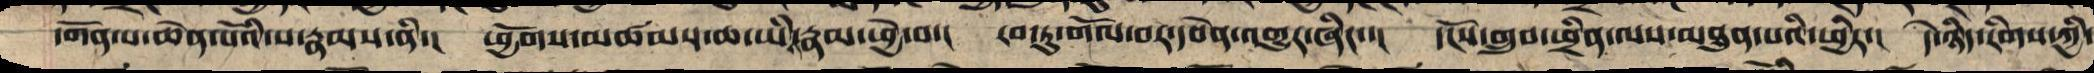དགོན་པ་ཆེན་པོའི་ས་རྣམས་ནི་། ཕྱོགས་མཚམས་ཆ་ཡིས་རྣམ་ཕྱེ་བ་། རབ་ཏུ་འགོལ་བར་དབེན་འགྱུར་ཞིང་་། དངོས་གྲུབ་ཕྲིན་ལས་མཐུན་པའི་ཕྱིར་། དེ་ཉིད་རིགས་ཀྱི་
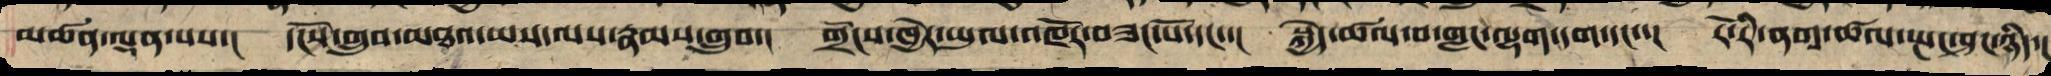མཚན་ལྡན་པས་། དངོས་གྲུབ་མཐའ་ཡས་ལས་རྣམས་འགྲུབ་། གྲོང་ཁྱེར་ཡུལ་འཁོར་བཟང་པོ་དང་་། སྐྱེད་ཚལ་བ་གླང་ལྷག་དག་དང་་། རོ་རི་ནགས་ཚལ་སྤང་ཤོང་ཉིད་།
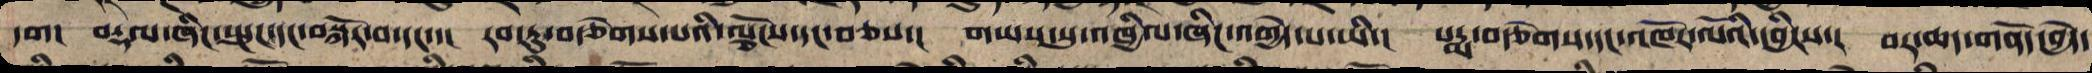དག། བརྡལ་ཞིང་སྤུཌ་དང་བསྐོར་བ་དང་་། རབ་ཏུ་བརྩེགས་པའི་ལྕོངས་དང་བཅས་། གཡས་སུ་འཁྱིལ་ཞིང་འགྱེད་པ་ཡི་། པདྨ་བརྩེགས་དང་འཁོར་ལོའི་དབྱིངས་། བར་ཆད་གནོད་བྱེད་
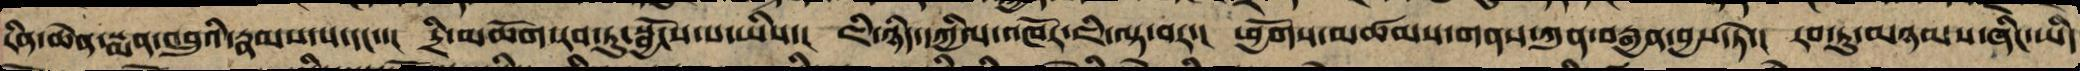རིན་ཆེན་སྨན་འབྲུའི་རྣམས་པ་དང་་། དྲི་མཆོག་རབ་ཏུ་སྦྱོངས་པ་ཡིས་། དེ་ཉིད་དཀྱིལ་འཁོར་ཇི་ལྟ་བར་། ཕྱོགས་མཚམས་གནས་ཀུན་བརྒྱན་བྱས་ཏེ་། རབ་ཏུ་མཉམས་ཞིང་ཡིད
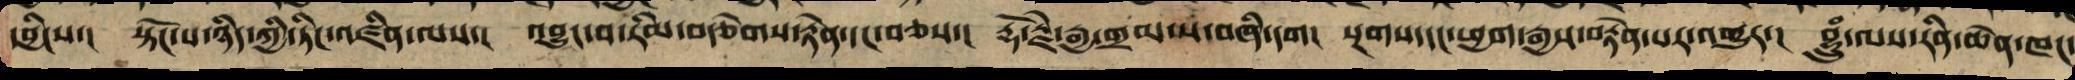དབྱིངས་། སྟོང་པ་ཉིད་ཀྱི་ཏིང་འཛིན་ལས་། འབྱུང་བ་རིམ་བརྩེགས་རྟེན་དང་བཅས་། རྡོ་རྗེ་རྒྱ་གྲམ་ས་གཞི་དག། སྔགས་དང་ཕྱག་རྒྱས་བརྟེན་པར་འགྱུར་། བྷྲཱུཾ་ལས་རིན་ཆེན་ཁང་
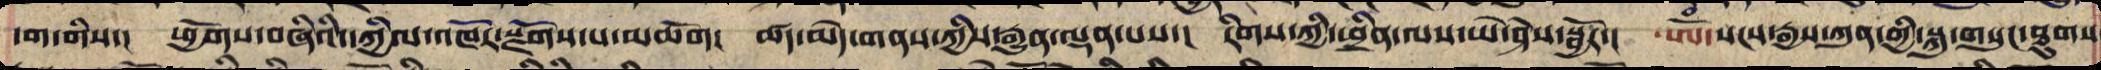དག་གིས་། ཕྱོགས་བཞིའི་དཀྱིལ་འཁོར་སྫོགས་པ་མཆོག། ཚད་མེད་གནས་ཀྱིས་རྒྱུན་ལྡན་པ་། རིགས་ཀྱི་ཕྲིན་ལས་ཡེ་ཤེས་སྦྱོར་། ཨོཾ་སངས་རྒྱས་ཀུན་གྱི་སྐུ་གསུང་ཐུགས
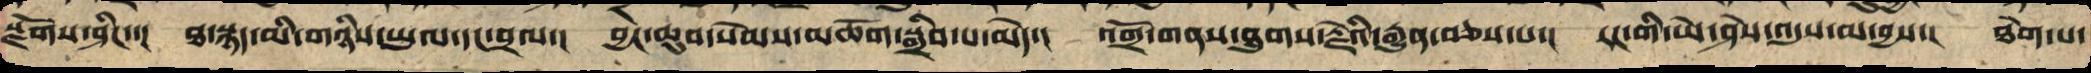སྫོགས་ཤིང་་། ཐ་སྙད་མི་གཉིས་ཡུལ་དང་བྲལ་། བྱང་ཆུབ་སེམས་མཆོག་སྒྲིབ་པ་མེད་། འགྲོ་གནས་ཐུགས་རྗེའི་རྒྱུན་བཅས་པ་། རང་གི་ཡེ་ཤེས་འདུས་མ་བྱས་། ཐེག་པ་
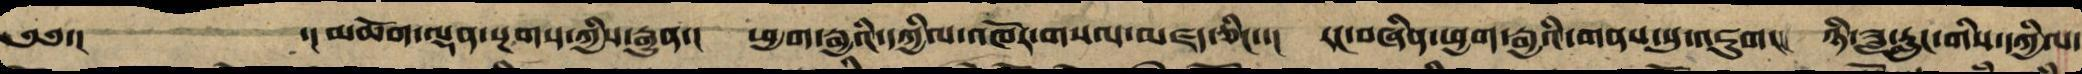༄༅་། ་།མཆོག་ལྡན་སྔགས་ཀྱི་རྒྱུན་། ཕྱག་རྒྱའི་དཀྱིལ་འཁོར་གསལ་མཛད་ཅིང་་། རང་བཞིན་ཕྱག་རྒྱའི་གནས་སུ་འཇུག། ཉི་ཟླ་རླུང་གིས་དཀྱིལ་
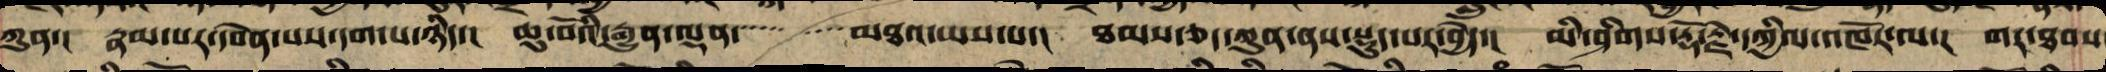ཀུན་། རྣམ་པར་དབེན་པས་དག་པ་ཉིད་། ཆུ་བོའི་རྒྱུན་ལྡན་མཐའ་ཡས་པ་། ཐམས་ཅད་ཀུན་ནས་སྡུད་པར་བྱེད་། མི་ཤིགས་རྡོ་རྗེའི་དཀྱིལ་འཁོར་ལ་། གར་ཐབས
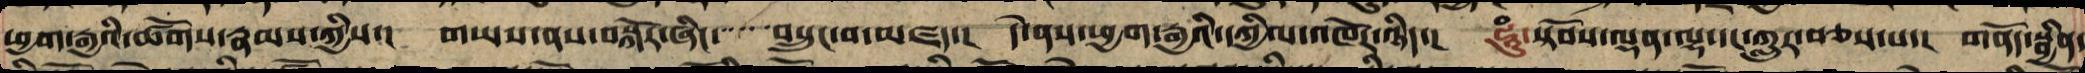ཕྱག་རྒྱའི་ཚོགས་རྣམས་ཀྱིས་། གཡས་ནས་བསྐོར་ཞིང་བསྲུང་བར་མཛད་། དེ་ནས་ཕྱག་རྒྱའི་དཀྱིལ་འཁོར་ཉིད་། ཧཱུྃ་སྟོབས་ཆེན་ལྷ་དང་ཀླུར་བཅས་པ་། གནོད་སྦྱིན་
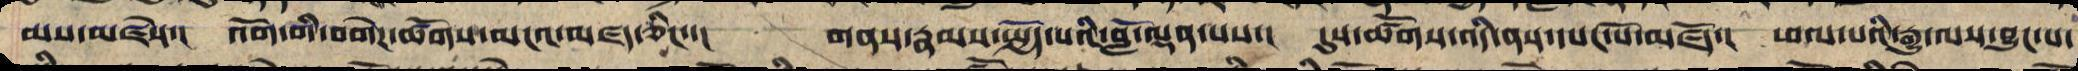མས་མཛེས་། འོག་གི་བགེཌ་ཚོགས་མངའ་མཛད་ཅིང་་། གནས་རྣམས་བསྐྱོད་པའི་བློ་ལྡན་པས་། དུས་ཚོད་འདི་ན་དཔང་པོ་མཛོད་། ཕལ་པའི་རྒྱུ་ལས་བྱུང་པ་
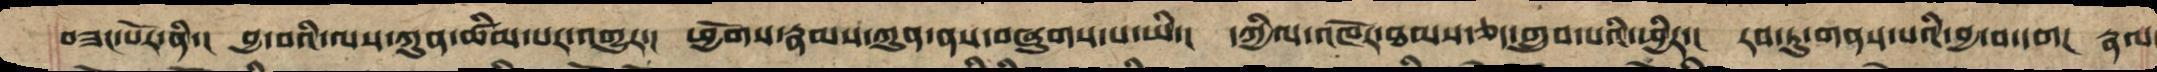བཟང་པོར་ནི་། བྱ་བའི་ལས་ཀུན་ཚིམས་པར་འགྱུར་། ཕྱོགས་རྣམས་ཀུན་ན་བཞུགས་པ་ཡི་། དཀྱིལ་འཁོར་ཐམས་ཅད་འགྲུབ་པའི་ཕྱིར་། རབ་ཏུ་གནས་པའི་བྱ་བ་དག། རྣལ
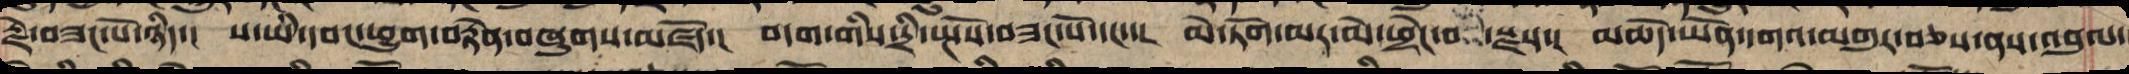རྗེ་བཟང་པོ་ཉིད་། ས་ཡི་དབང་ཕྱུག་བརྟེན་བཞུགས་མཛོད་། བདག་གིས་དྲི་སྤོས་བཟང་པོ་དང་་། མེ་ཏོག་མར་མེ་ཕྲེང་བའི་སྫས་། མཆོད་ཡོན་དགའ་མགུར་བཅས་ནས་འབུལ་
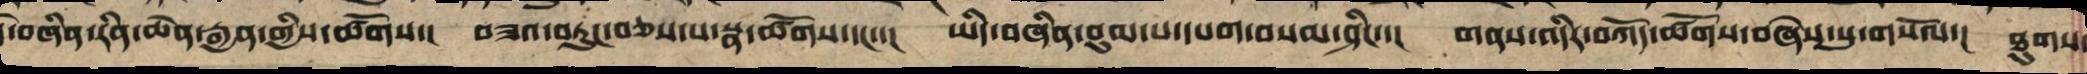དེ་བཞིན་རིན་ཆེན་རྒྱན་གྱི་ཚོགས་། བཟའ་བཏུང་བཅས་པ་སྣ་ཚོགས་དང་་། ཡིད་བཞིན་བུམ་པ་དཔག་བསམ་ཤིང་་། གནས་འདིར་བཀོད་ཚོགས་བཞེས་སུ་གསོལ་། ཐུགས་
